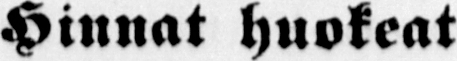Hinnat huokeat
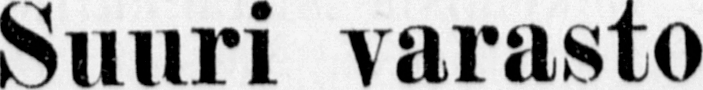Suuri varasto
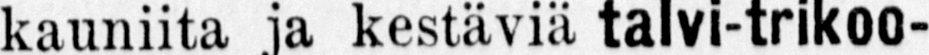kauniita ja kestäviä talvi-trikoo-
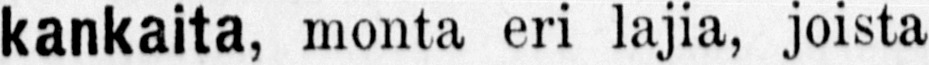kankaita, monta eri lajia, joista
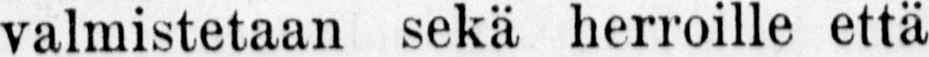valmistetaan sekä herroille että
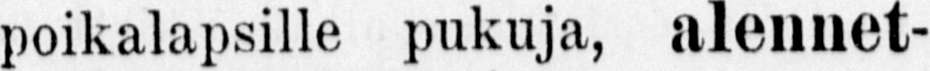poikalapsille pukuja, alennet-
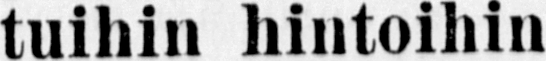tuihin hintoihin
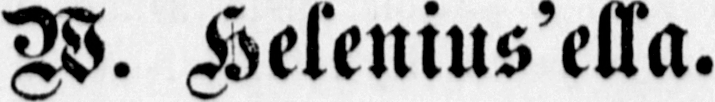W. Helenius'ella.
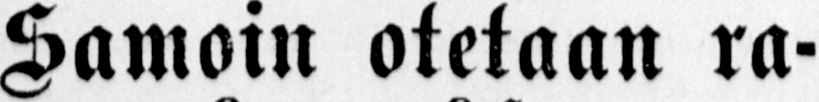Samoin otetaan ra-
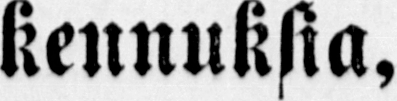kennuksia,
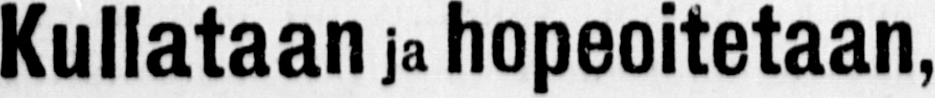Kullataan ja hopeoitetaan,
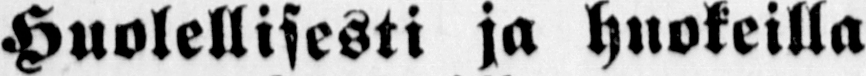Huolellisesti ja huokeilla
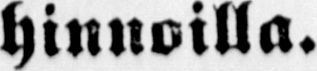hinnoilla.
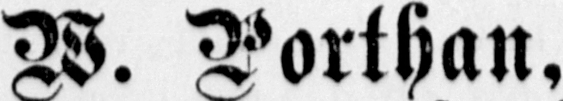W. Porthan,
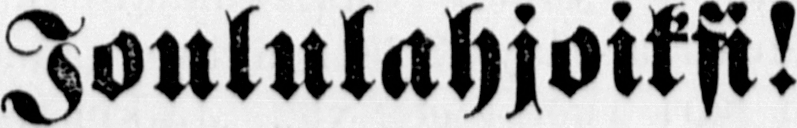Joululahjoiksi!
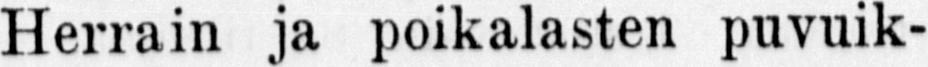Herrain ja poikalasten puvuik-
